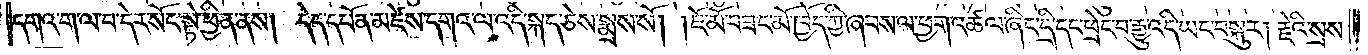དགའ་ག་ལ་བ་དེར་སོང་སྟེ་ཕྱིན་ནས། དེད་དཔོན་མཛེས་དགའ་ལ་འདི་སྐད་ཅེས་སྨྲས་སོ། །ཇོ་མོ་བཟང་མོ་ཁྱོད་ཀྱི་ཞབས་ལ་ཕྱག་འཚལ་ཞིང་དྲི་དང་ཕྲེང་བ་རྒྱུ་འདི་ཡང་བསྐུར། རྗེའི་སྲས་
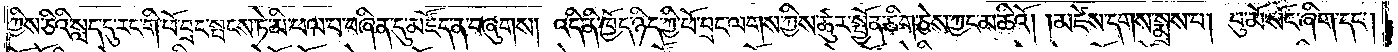ཀྱིས་ཅིའི་སླད་དུ་རང་གི་ཕོ་བྲང་སྤངས་ཏེ་མི་ཕལ་བ་བཞིན་དུ་མཛོད་ན་བཞུགས། འདི་ནི་ཁྱོད་ཉིད་ཀྱི་ཕོ་བྲང་ལགས་ཀྱིས་ཚུར་སྤྱོན་ཅིག་ཅེས་ཀྱང་མཆིའོ། །མཛེས་དགས་སྨྲས་པ། བུ་མོ་སོང་ཞིག་དང༌།
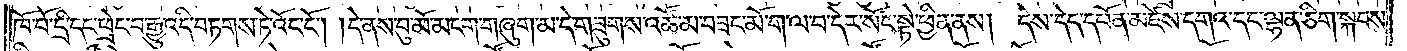ཁོ་བོ་དྲི་དང་ཕྲེང་བ་རྒྱུ་འདི་བཏགས་ཏེ་འོང་ངོ༌། །དེ་ནས་བུ་མོ་མངག་གཞུག་མ་དེ་གཟུགས་འཚོ་མ་བཟང་མོ་ག་ལ་བ་དེར་སོང་སྟེ་ཕྱིན་ནས། དེས་དེད་དཔོན་མཛེས་དགའ་དང་ལྷན་ཅིག་སྐབས་
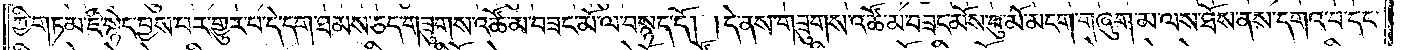ཀྱི་གཏམ་ཇི་སྙེད་བྱས་པར་གྱུར་པ་དེ་དག་ཐམས་ཅད་གཟུགས་འཚོ་མ་བཟང་མོ་ལ་བསྙད་དོ། །དེ་ནས་གཟུགས་འཚོ་མ་བཟང་མོས་བུ་མོ་མངག་གཞུག་མ་ལས་ཐོས་ནས་དགའ་བ་དང་
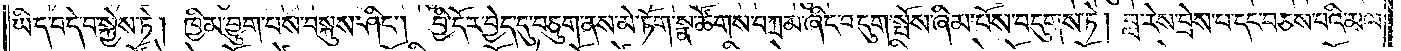ཡིད་བདེ་བ་སྐྱེས་ཏེ། ཁྱིམ་བྱུག་པས་བསྐུས་ཤིང༌། བྱི་དོར་བྱེད་དུ་བཅུག་ནས་མེ་ཏོག་སྣ་ཚོགས་བཀྲམ་ཞིང་བདུག་སྤོས་ཞིམ་པོས་བདུགས་ཏེ། བླ་རེས་བྲེས་པ་དང་བཅས་པའི་མལ་
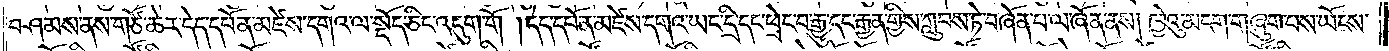བཤམས་ནས་གཙོ་ཆེར་དེད་དཔོན་མཛེས་དགའ་ལ་སྡོད་ཅིང་འདུག་གོ །དེད་དཔོན་མཛེས་དགའ་ཡང་དྲི་དང་ཕྲེང་བ་རྒྱུ་དང་རྒྱན་གྱིས་ཀླུབས་ཏེ་བཞོན་པ་ལ་ཞོན་ནས། ཁྱེའུ་མངག་གཞུག་པས་ཡོངས་
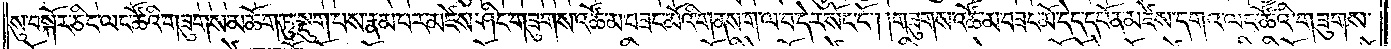སུ་བསྐོར་ཅིང་ལང་ཚོའི་གཟུགས་མཆོག་ཏུ་སྡུག་པས་རྣམ་པར་མཛེས་ཤིང་གཟུགས་འཚོ་མ་བཟང་མོའི་གནས་ག་ལ་བ་དེར་སོང་ངོ༌། །གཟུགས་འཚོ་མ་བཟང་མོ་དེད་དཔོན་མཛེས་དགའ་ལང་ཚོའི་གཟུགས་
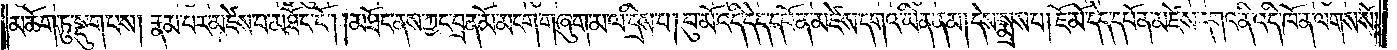མཆོག་ཏུ་སྡུག་པས། རྣམ་པར་མཛེས་པ་མཐོང་ངོ༌། །མཐོང་ནས་ཀྱང་བྲན་མོ་མངག་གཞུག་མ་ལ་དྲིས་པ། བུ་མོ་འདི་དེད་དཔོན་མཛེས་དགའ་ཡིན་ནམ།དེས་སྨྲས་པ། ཇོ་མོ་དེད་དཔོན་མཛེས་དགའ་ནི་འདི་ཁོ་ན་ལགས་སོ། །
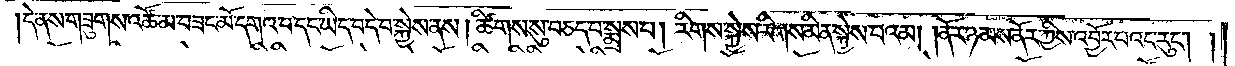དེ་ནས་གཟུགས་འཚོ་མ་བཟང་མོ་དགའ་བ་དང་ཡིད་བདེ་བ་སྐྱེས་ནས། ཚིགས་སུ་བཅད་པ་སྨྲས་པ། རིགས་སྐྱེས་རིགས་མིན་སྐྱེས་པའམ། ནོར་ཉམས་ནོར་ཀྱིས་འབྱོར་པའང་རུང༌། །
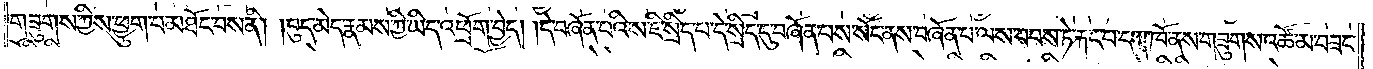གཟུགས་ཀྱིས་ཕྱུག་པ་མཐོང་བས་ནི། །བུད་མེད་རྣམས་ཀྱི་ཡིད་འཕྲོག་བྱེད། །དེ་བཞོན་པའི་ས་ཇི་སྲིད་པ་དེ་སྲིད་དུ་བཞོན་པས་སོང་ནས་བཞོན་པ་ལས་བབས་ཏེ་རྐང་པ་དག་ཁོ་ནས་གཟུགས་འཚོ་མ་བཟང་
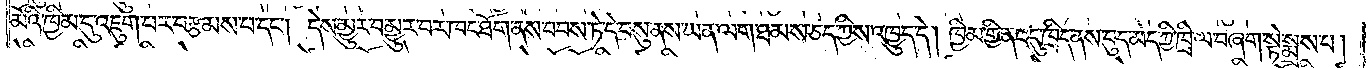མོའི་ཁྱིམ་དུ་འཇུག་པར་བརྩམས་པ་དང༌། དེས་མྱུར་བ་མྱུར་བར་ཁང་ཐོག་ནས་བབས་ཏེ་དེ་བསུ་ནས་ཡན་ལག་ཐམས་ཅད་ཀྱིས་འཁྱུད་དེ། ཁྱིམ་གྱི་ནང་དུ་ཁྲིད་ནས་བུད་མེད་ཀྱི་ཁྲི་ལ་བཞག་སྟེ་སྨྲས་པ།
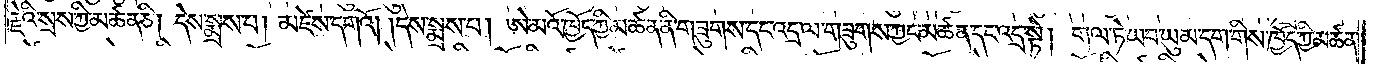རྗེའི་སྲས་ཀྱི་མཚན་ཅི། དེས་སྨྲས་པ། མཛེས་དགའོ། །དེས་སྨྲས་པ། ཨེ་མའོ་ཁྱོད་ཀྱི་མཚན་ནི་གཟུགས་དང་འདྲ་ལ་གཟུགས་ཀྱང་མཚན་དང་འདྲ་སྟེ། གལ་ཏེ་ཡབ་ཡུམ་དག་གིས་ཁྱོད་ཀྱི་མཚན་
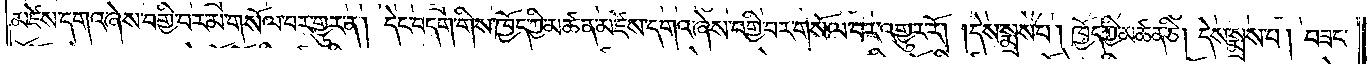མཛེས་དགའ་ཞེས་བགྱི་བར་མ་གསོལ་བར་གྱུར་ན། དེང་བདག་གིས་ཁྱོད་ཀྱི་མཚན་མཛེས་དགའ་ཞེས་བགྱི་པར་གསོལ་པར་འགྱུར་རོ། །དེས་སྨྲས་པ། ཁྱོད་ཀྱི་མཚན་ཅི། དེས་སྨྲས་པ། བཟང་
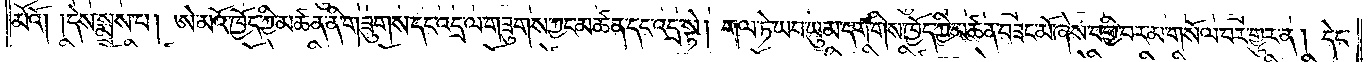མོའོ། །དེས་སྨྲས་པ། ཨེ་མའོ་ཁྱོད་ཀྱི་མཚན་ནི་གཟུགས་དང་འདྲ་ལ་གཟུགས་ཀྱང་མཚན་དང་འདྲ་སྟེ། གལ་ཏེ་ཡབ་ཡུམ་དག་གིས་ཁྱོད་ཀྱི་མཚན་བཟང་མོ་ཞེས་བགྱི་བར་མ་གསོལ་བར་གྱུར་ན། དེང་
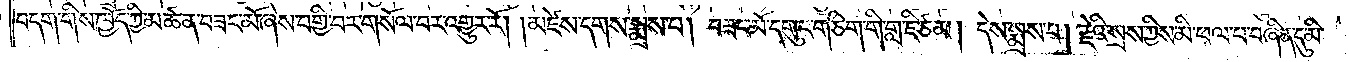བདག་གིས་ཁྱོད་ཀྱི་མཚན་བཟང་མོ་ཞེས་བགྱི་བར་གསོལ་བར་འགྱུར་རོ། །མཛེས་དགས་སྨྲས་པ། བཟང་མོ་དགུང་གཅིག་གི་གླ་ཇི་ཙམ། དེས་སྨྲས་པ། རྗེའི་སྲས་ཀྱིས་མི་ཕལ་བ་བཞིན་དུ་མི་
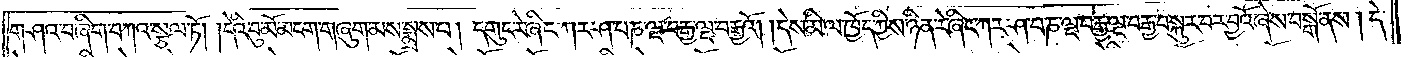གཤའ་བ་ཞིག་བཀའ་སྩལ་ཏོ། །དེའི་བུ་མོ་མངག་གཞུག་མས་སྨྲས་པ། དགུང་རེ་ཞིང་ཀར་ཤ་པ་ཎ་ལྔ་བརྒྱ་ལྔ་བརྒྱའོ། །དེས་མི་ལ་ཁྱོད་ཀྱིས་ཉིན་རེ་ཞིང་ཀར་ཤ་པ་ཎ་ལྔ་བརྒྱ་ལྔ་བརྒྱ་བསྐུར་བར་བྱའོ་ཞེས་བསྒོ་ནས། དེ་
